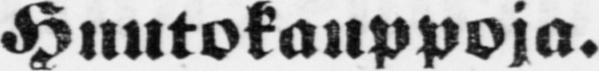Huutokauppoja.
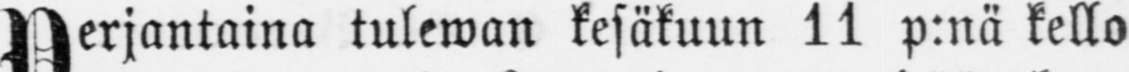Perjantaina tulewan kesäkuun 11 p:nä kello
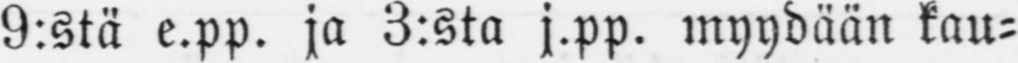9:stä e.pp. ja 3:sta j.pp. myydään kau-
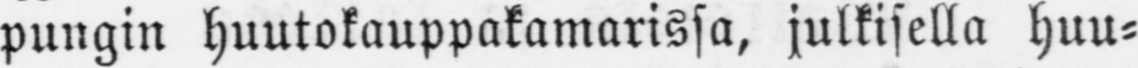pungin huutokauppakamarissa, julkisella huu-
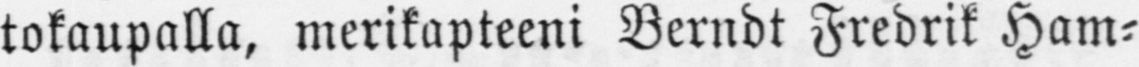tokaupalla, merikapteeni Berndt Fredrik Ham-
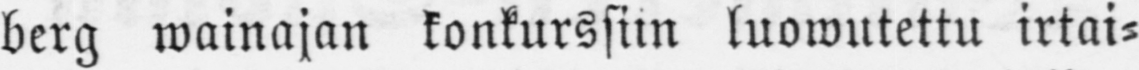berg wainajan konkurssiin luowutettu irtai-
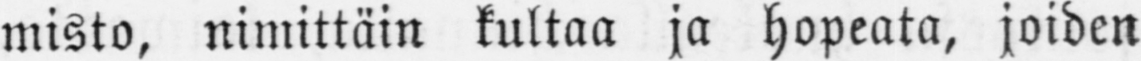misto, nimittäin kultaa ja hopeata, joiden
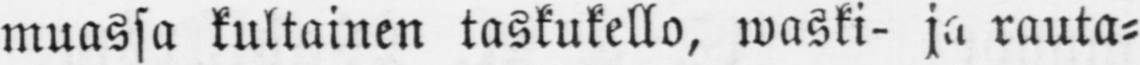muassa kultainen taskukello, waski- ja rauta-
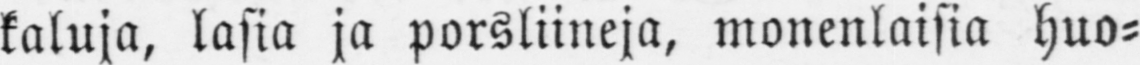kaluja, lasia ja porsliineja, monenlaisia huo-
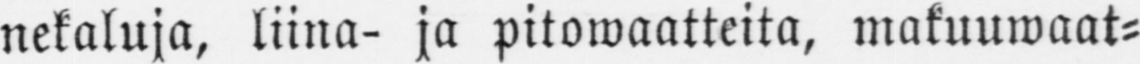nekaluja, liina- ja pitowaatteita, makuuwaat-
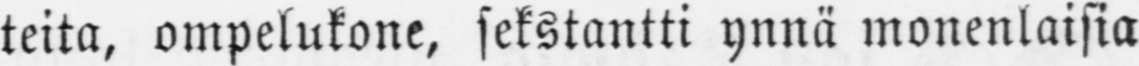teita, ompelukone, sekstantti ynnä monenlaisia
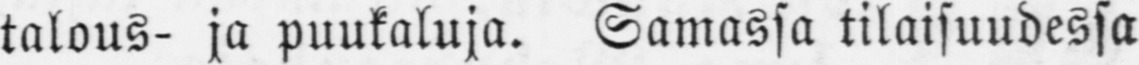talous- ja puukaluja. Samassa tilaisuudessa
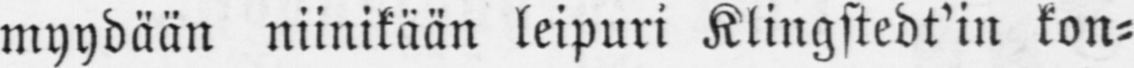myydään niinikään leipuri Klingstedt'in kon-
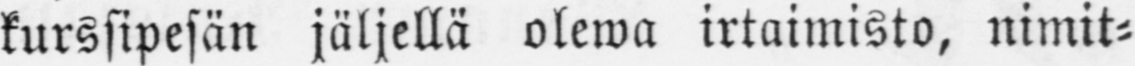kurssipesän jäljellä olewa irtaimisto, nimit-
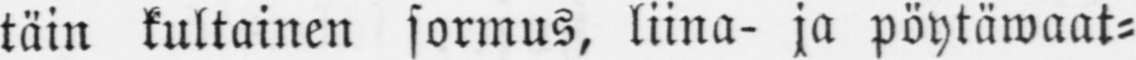täin kultainen sormus, liina- ja pöytäwaat-
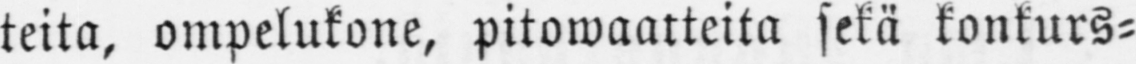teita, ompelukone, pitowaatteita sekä konkurs-
